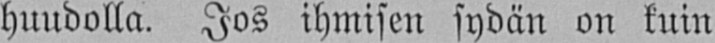huudolla. Jos ihmisen sydän on kuin
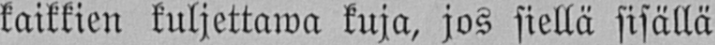kaikkien kuljettawa kuja, jos siellä sisällä
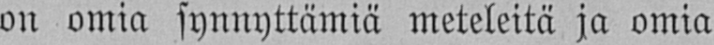on omia synnyttämiä meteleitä ja omia
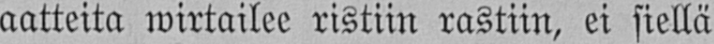aatteita wirtailee ristiin rastiin, ei siellä
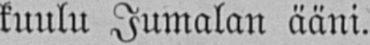kuulu Jumalan ääni.
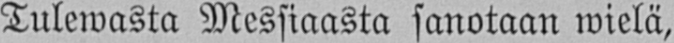Tulewasta Messiaasta sanotaan wielä,
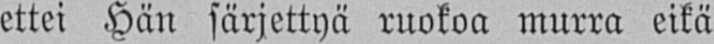ettei Hän särjettyä ruokoa murra eikä
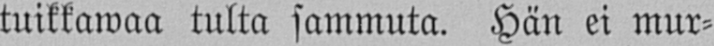tuikkawaa tulta sammuta. Hän ei mur-
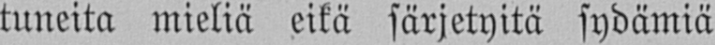tuneita mieliä eikä särjetyitä sydämiä
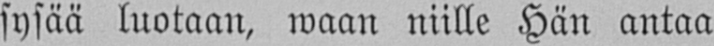sysää luotaan, waan niille Hän antaa
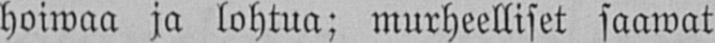hoiwaa ja lohtua; murheelliset saawat
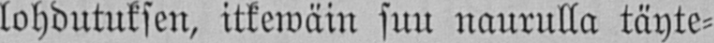lohdutuksen, itkewäin suu naurulla täyte-
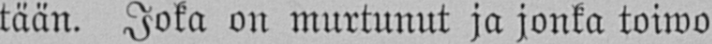tään. Joka on murtunut ja jonka toiwo
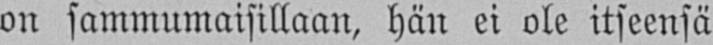on sammumaisillaan, hän ei ole itseensä
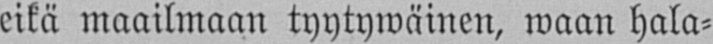eikä maailmaan tyytywäinen, waan hala-
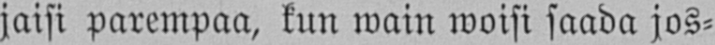jaisi parempaa, kun wain woisi saada jos-
